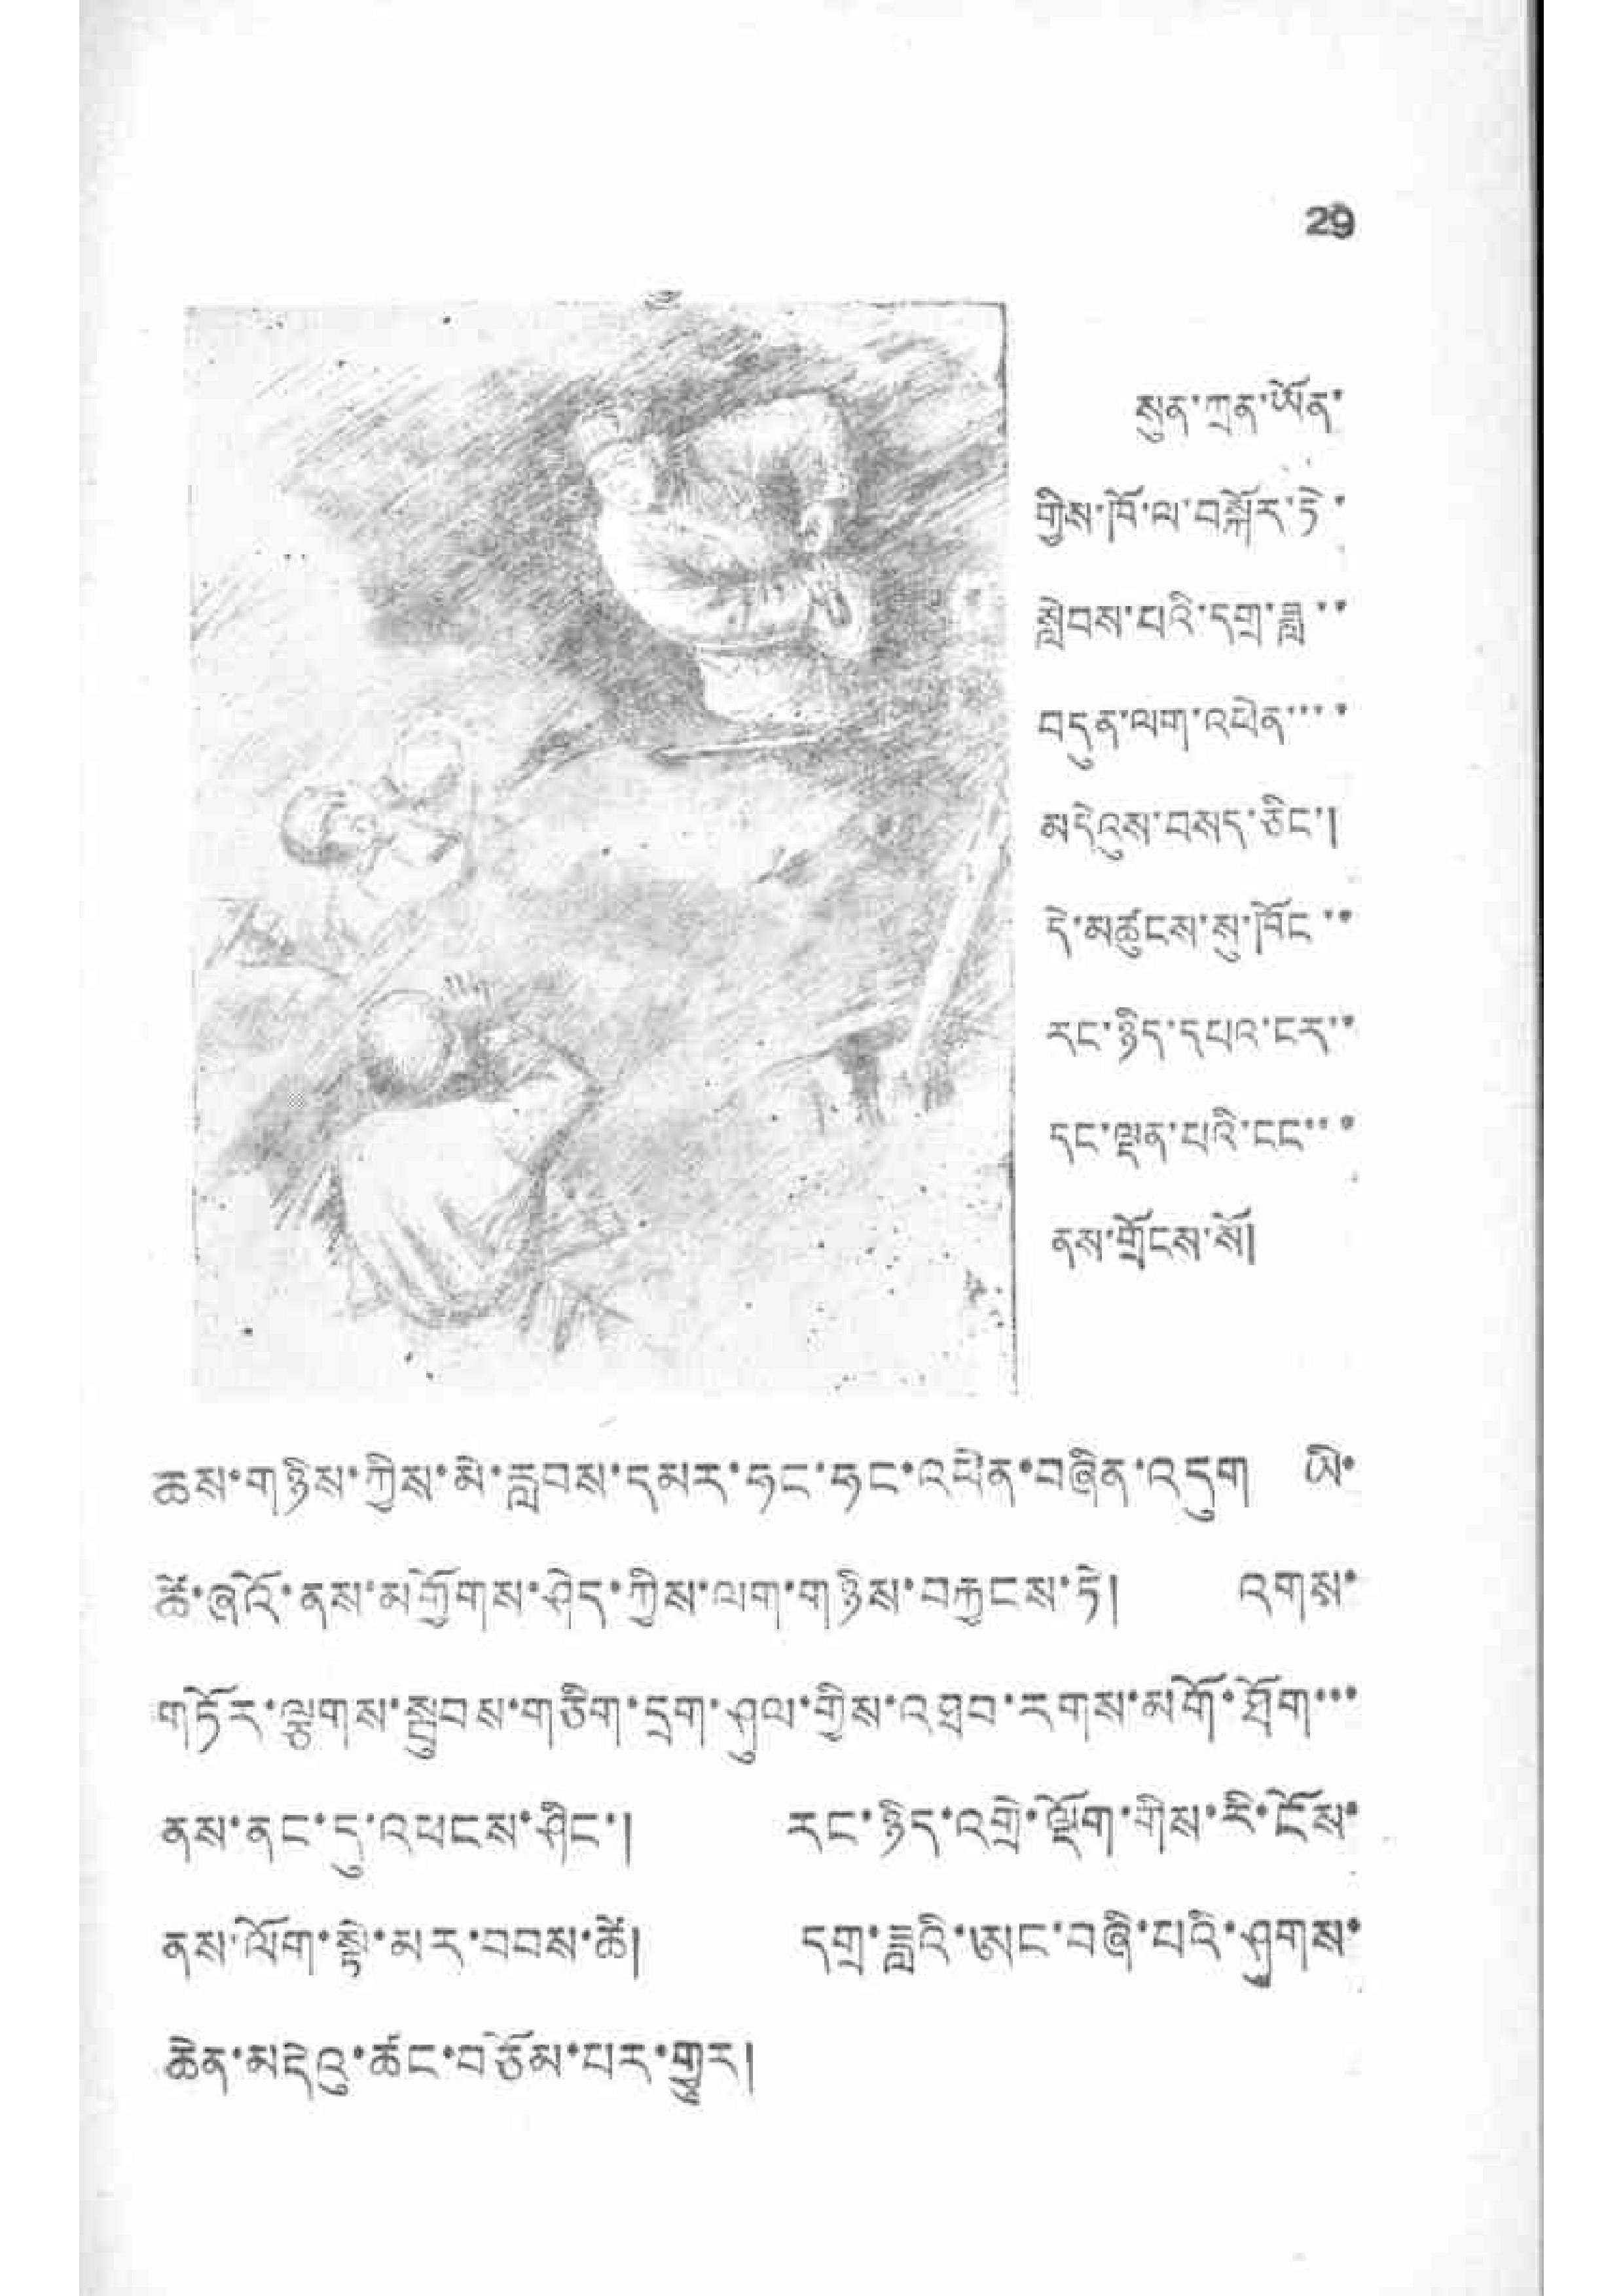29
སུན་ཀྲན་ཡོན་
གྱིས་ཁོ་ལ་བསྐོར་ཏེ་
སླེབས་པའི་དགྲ་ཟླ་་
བདུན་ལག་འཕེན་་་་
མདེའུས་བསད་ཅིང་།
དེ་མཚུངས་སུ་ཁོང་་
རང་ཉིད་དཔའ་ངར་་
དང་ལྡན་པའི་ངང་་་
ནས་གྲོངས་སོ།
ཆས་གཉིས་ཀྱིས་མེ་རླབས་དམར་ཧང་ཧང་འཕེན་བཞིན་འདུག ཡི་
ཚེ་ཞའོ་ནས་མགྱོགས་ཤེད་ཀྱིས་ལག་གཉིས་བརྐྱངས་ཏེ། འགས་
གཏོར་ལྕགས་སྦུབས་གཅིག་དྲག་ཤུལ་གྱིས་འཐབ་རགས་མགོ་ཐོག་་་
ནས་ནང་དུ་འཕངས་ཤིང་། རང་ཉིད་འགྲེ་ལྡོག་གིས་རི་ངོས་
ནས་ལོག་སྟེ་མར་བབས་ཚེ། དགྲ་ཟླའི་ཨང་བཞི་པའི་ཤུགས་
ཆེན་མདེའུ་ཚང་བཅོམ་པར་གྱུར།
